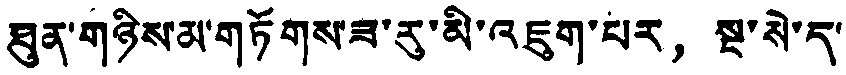ཐུན་གཉིས་མ་གཏོགས་ཟ་རུ་མི་འཇུག་པར，སྔ་སེ་ད་
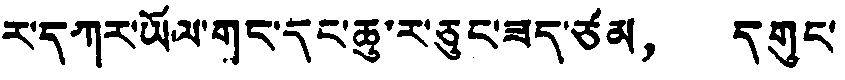ར་དཀར་ཡོལ་གང་དང་ཆུ་ར་ཅུང་ཟད་ཙམ，དགུང་
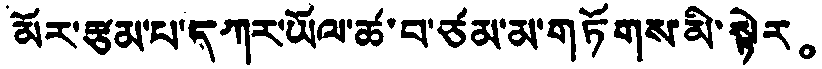མོར་རྩམ་པ་དཀར་ཡོལ་ཚ་བ་ཙམ་མ་གཏོགས་མི་སྟེར。
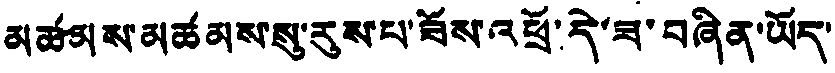མཚམས་མཚམས་སུ་རུས་པ་ཟོས་འཕྲོ་དེ་ཟ་བཞིན་ཡོད་
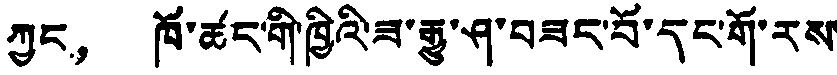ཀྱང，ཁོ་ཚང་གི་ཁྱིའི་ཟ་རྒྱུ་ཤ་བཟང་པོ་དང་གོ་རས་
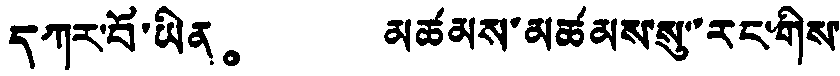དཀར་བོ་ཡིན。མཚམས་མཚམས་སུ་རང་གིས་
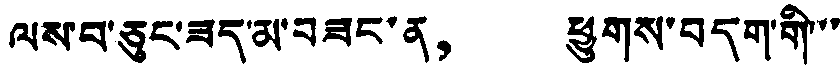ལས་པ་ཅུང་ཟད་མ་བཟང་ན，ཕྱུགས་བདག་གི་་་
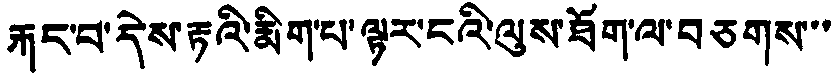རྐང་བ་དེས་རྟའི་རྨིག་པ་ལྟར་ངའི་ལུས་ཐོག་ལ་བཅགས་་་
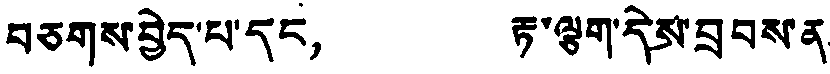བཅགས་བྱེད་པ་དང，རྟ་ལྕག་དེས་བྲབས་ན་
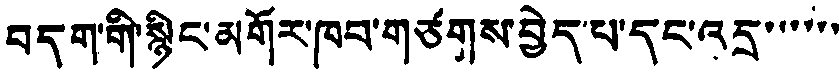བདག་གི་སྙིང་མགོར་ཁབ་གཙགས་བྱེད་པ་དང་འདྲ་་་་་་
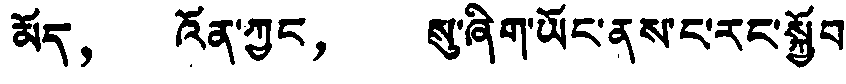མོད，འོན་ཀྱང，སུ་ཞིག་ཡོང་ནས་ང་རང་སྐྱོབ་
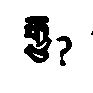རྒྱུ？
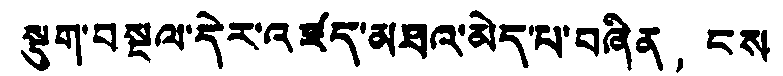སྡུག་བསྔལ་དེར་འཛད་མཐའ་མེད་པ་བཞིན，ངས
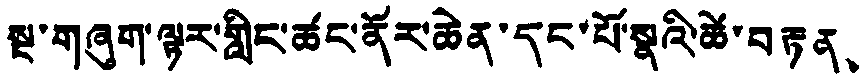སྔ་གཞུག་ལྟར་གླིང་ཚང་ནོར་ཆེན་དང་པོ་སྣའི་ཚེ་བརྟན、
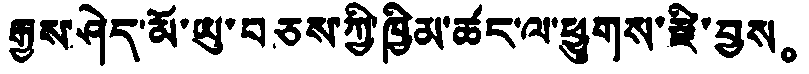རྒྱུས་ཤེད་མོ་ཡུ་བཅས་ཀྱི་ཁྱིམ་ཚང་ལ་ཕྱུགས་རྫི་བྱས。
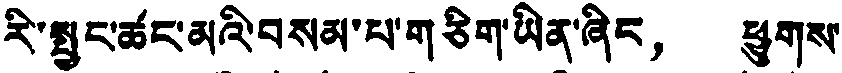རི་སྤྱང་ཚང་མའི་བསམ་པ་གཅིག་ཡིན་ཞིང，ཕྱུགས་
